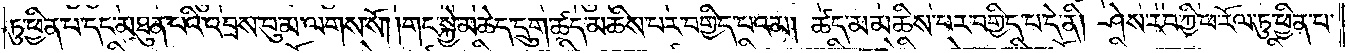ཏུ་ཕྱིན་པ་དང་མཐུན་པའི་འབྲས་བུ་མ་ལགས་སོ། །གང་སྐྱེ་མཆེད་དྲུག་ཚད་མཆིས་པར་བགྱིད་པའམ། ཚད་མ་མཆིས་པར་བགྱིད་པ་དེ་ནི། ཤེས་རབ་ཀྱི་ཕ་རོལ་ཏུ་ཕྱིན་པ་
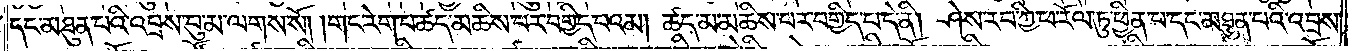དང་མཐུན་པའི་འབྲས་བུ་མ་ལགས་སོ། །གང་རེག་པ་ཚད་མཆིས་པར་བགྱིད་པའམ། ཚད་མ་མཆིས་པར་བགྱིད་པ་དེ་ནི། ཤེས་རབ་ཀྱི་ཕ་རོལ་ཏུ་ཕྱིན་པ་དང་མཐུན་པའི་འབྲས་
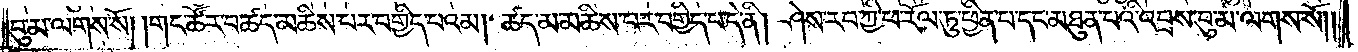བུ་མ་ལགས་སོ། །གང་ཚོར་བ་ཚད་མཆིས་པར་བགྱིད་པའམ། ཚད་མ་མཆིས་པར་བགྱིད་པ་དེ་ནི། ཤེས་རབ་ཀྱི་ཕ་རོལ་ཏུ་ཕྱིན་པ་དང་མཐུན་པའི་འབྲས་བུ་མ་ལགས་སོ། །
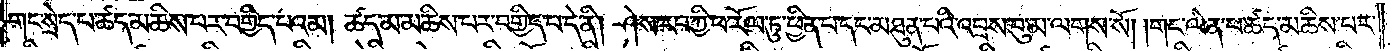གང་སྲེད་པ་ཚད་མཆིས་པར་བགྱིད་པའམ། ཚད་མ་མཆིས་པར་བགྱིད་པ་དེ་ནི། ཤེས་རབ་ཀྱི་ཕ་རོལ་ཏུ་ཕྱིན་པ་དང་མཐུན་པའི་འབྲས་བུ་མ་ལགས་སོ། །གང་ལེན་པ་ཚད་མཆིས་པར་
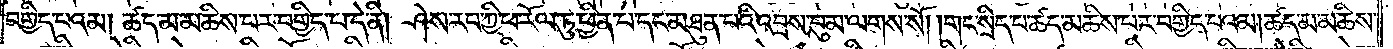བགྱིད་པའམ། ཚད་མ་མཆིས་པར་བགྱིད་པ་དེ་ནི། ཤེས་རབ་ཀྱི་ཕ་རོལ་ཏུ་ཕྱིན་པ་དང་མཐུན་པའི་འབྲས་བུ་མ་ལགས་སོ། །གང་སྲིད་པ་ཚད་མཆིས་པར་བགྱིད་པའམ། ཚད་མ་མཆིས་
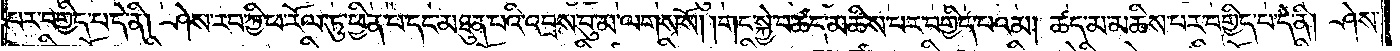པར་བགྱིད་པ་དེ་ནི། ཤེས་རབ་ཀྱི་ཕ་རོལ་ཏུ་ཕྱིན་པ་དང་མཐུན་པའི་འབྲས་བུ་མ་ལགས་སོ། །གང་སྐྱེ་བ་ཚད་མཆིས་པར་བགྱིད་པའམ། ཚད་མ་མཆིས་པར་བགྱིད་པ་དེ་ནི། ཤེས་
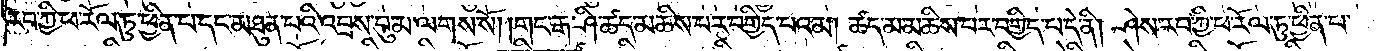རབ་ཀྱི་ཕ་རོལ་ཏུ་ཕྱིན་པ་དང་མཐུན་པའི་འབྲས་བུ་མ་ལགས་སོ། །གང་རྒ་ཤི་ཚད་མཆིས་པར་བགྱིད་པའམ། ཚད་མ་མཆིས་པར་བགྱིད་པ་དེ་ནི། ཤེས་རབ་ཀྱི་ཕ་རོལ་ཏུ་ཕྱིན་པ་
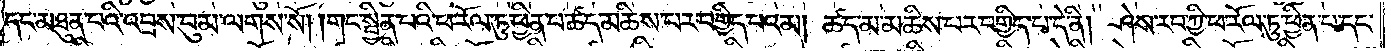དང་མཐུན་པའི་འབྲས་བུ་མ་ལགས་སོ། །གང་སྦྱིན་པའི་ཕ་རོལ་ཏུ་ཕྱིན་པ་ཚད་མཆིས་པར་བགྱིད་པའམ། ཚད་མ་མཆིས་པར་བགྱིད་པ་དེ་ནི། ཤེས་རབ་ཀྱི་ཕ་རོལ་ཏུ་ཕྱིན་པ་དང་
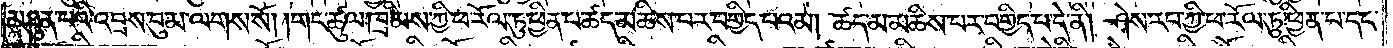མཐུན་པའི་འབྲས་བུ་མ་ལགས་སོ། །གང་ཚུལ་ཁྲིམས་ཀྱི་ཕ་རོལ་ཏུ་ཕྱིན་པ་ཚད་མཆིས་པར་བགྱིད་པའམ། ཚད་མ་མཆིས་པར་བགྱིད་པ་དེ་ནི། ཤེས་རབ་ཀྱི་ཕ་རོལ་ཏུ་ཕྱིན་པ་དང་
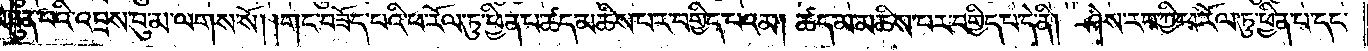མཐུན་པའི་འབྲས་བུ་མ་ལགས་སོ། །གང་བཟོད་པའི་ཕ་རོལ་ཏུ་ཕྱིན་པ་ཚད་མཆིས་པར་བགྱིད་པའམ། ཚད་མ་མཆིས་པར་བགྱིད་པ་དེ་ནི། ཤེས་རབ་ཀྱི་ཕ་རོལ་ཏུ་ཕྱིན་པ་དང་
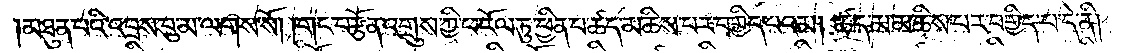མཐུན་པའི་འབྲས་བུ་མ་ལགས་སོ། །གང་བརྩོན་འགྲུས་ཀྱི་ཕ་རོལ་ཏུ་ཕྱིན་པ་ཚད་མཆིས་པར་བགྱིད་པའམ། ཚད་མ་མཆིས་པར་བགྱིད་པ་དེ་ནི།
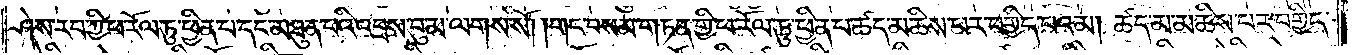ཤེས་རབ་ཀྱི་ཕ་རོལ་ཏུ་ཕྱིན་པ་དང་མཐུན་པའི་འབྲས་བུ་མ་ལགས་སོ། །གང་བསམ་གཏན་གྱི་ཕ་རོལ་ཏུ་ཕྱིན་པ་ཚད་མཆིས་པར་བགྱིད་པའམ། ཚད་མ་མཆིས་པར་བགྱིད་
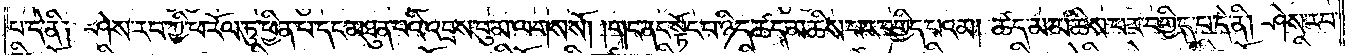པ་དེ་ནི༑ ཤེས་རབ་ཀྱི་ཕ་རོལ་ཏུ་ཕྱིན་པ་དང་མཐུན་པའི་འབྲས་བུ་མ་ལགས་སོ། །གང་ནང་སྟོང་པ་ཉིད་ཚད་མཆིས་པར་བགྱིད་པའམ། ཚད་མ་མཆིས་པར་བགྱིད་པ་དེ་ནི། ཤེས་རབ་
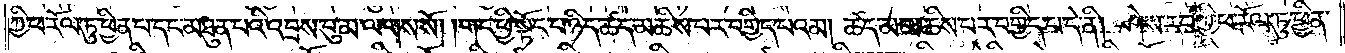ཀྱི་ཕ་རོལ་ཏུ་ཕྱིན་པ་དང་མཐུན་པའི་འབྲས་བུ་མ་ལགས་སོ། །གང་ཕྱི་སྟོང་པ་ཉིད་ཚད་མཆིས་པར་བགྱིད་པའམ། ཚད་མ་མཆིས་པར་བགྱིད་པ་དེ་ནི། ཤེས་རབ་ཀྱི་ཕ་རོལ་ཏུ་ཕྱིན་
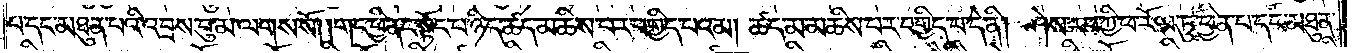པ་དང་མཐུན་པའི་འབྲས་བུ་མ་ལགས་སོ། །གང་ཕྱི་ནང་སྟོང་པ་ཉིད་ཚད་མཆིས་པར་བགྱིད་པའམ། ཚད་མ་མཆིས་པར་བགྱིད་པ་དེ་ནི། ཤེས་རབ་ཀྱི་ཕ་རོལ་ཏུ་ཕྱིན་པ་དང་མཐུན་
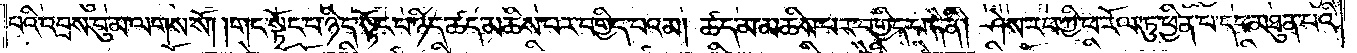པའི་འབྲས་བུ་མ་ལགས་སོ། །གང་སྟོང་པ་ཉིད་སྟོང་པ་ཉིད་ཚད་མཆིས་པར་བགྱིད་པའམ། ཚད་མ་མཆིས་པར་བགྱིད་པ་དེ་ནི། ཤེས་རབ་ཀྱི་ཕ་རོལ་ཏུ་ཕྱིན་པ་དང་མཐུན་པའི་
